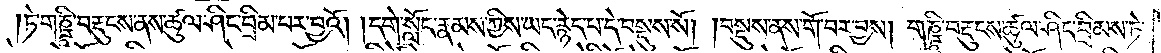ཏེ་གཎྜཱི་བརྡུངས་ནས་ཚུལ་ཤིང་བྲིམ་པར་བྱའོ། །དགེ་སློང་རྣམས་ཀྱིས་ཡང་རྙེད་པ་དེ་བསྡུས་སོ། །བསྡུས་ནས་གོ་བར་བྱས། གཎྜཱི་བརྡུངས་ཚུལ་ཤིང་བྲིམས་ཏེ་
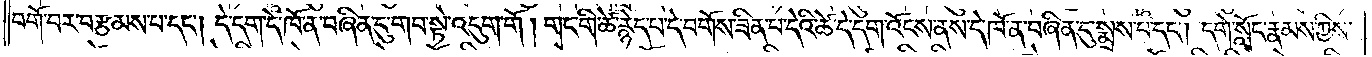བགོ་བར་བརྩམས་པ་དང༌། དེ་དག་དེ་ཁོ་ན་བཞིན་དུ་གབ་སྟེ་འདུག་གོ །གང་གི་ཚེ་རྙེད་པ་དེ་བགོས་ཟིན་པ་དེའི་ཚེ་དེ་དག་འོངས་ནས་དེ་ཁོ་ན་བཞིན་དུ་སྨྲས་པ་དང༌། དགེ་སློང་རྣམས་ཀྱིས་
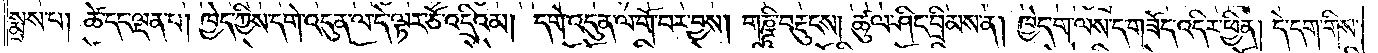སྨྲས་པ། ཚེ་དང་ལྡན་པ། ཁྱེད་ཀྱིས་དགེ་འདུན་ལ་དེ་ལྟར་ཅོ་འདྲིའམ། དགེ་འདུན་ལ་གོ་བར་བྱས། གཎྜཱི་བརྡུངས། ཚུལ་ཤིང་བྲིམས་ན། ཁྱེད་ག་ལས་ད་གཟོད་འདིར་ཕྱིན། དེ་དག་གིས་
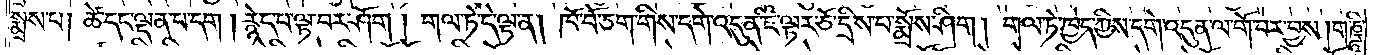སྨྲས་པ། ཚེ་དང་ལྡན་པ་དག །རྙེད་པ་ལྟ་བར་ཤོག །གལ་ཏེ་དེ་ལྟ་ན། ཁོ་བོ་ཅག་གིས་དགེ་འདུན་ཇི་ལྟར་ཅོ་དྲིས་པ་སྨྲོས་ཤིག །གལ་ཏེ་ཁྱེད་ཀྱིས་དགེ་འདུན་ལ་གོ་བར་བྱས། གཎྜཱི་
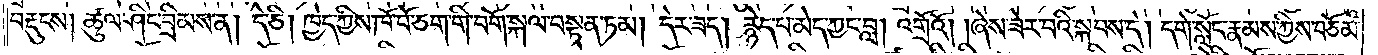བརྡུངས། ཚུལ་ཤིང་བྲིམས་ན། དེ་ཅི། ཁྱེད་ཀྱིས་ཁོ་བོ་ཅག་གི་བགོ་སྐལ་བསྟན་ཏམ། དེར་ཟད། རྙེད་པ་མེད་ཀྱང་བླ། འགྲོའོ། །ཞེས་ཟེར་བའི་སྐབས་དེ། དགེ་སློང་རྣམས་ཀྱིས་བཅོམ་
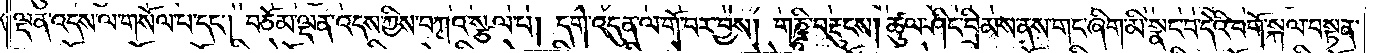ལྡན་འདས་ལ་གསོལ་པ་དང༌། བཅོམ་ལྡན་འདས་ཀྱིས་བཀའ་སྩལ་པ། དགེ་འདུན་ལ་གོ་བར་བྱས། གཎྜཱི་བརྡུངས། ཚུལ་ཤིང་བྲིམས་ནས་གང་ཞིག་མི་སྣང་བ་དེའི་བགོ་སྐལ་བསྟན་
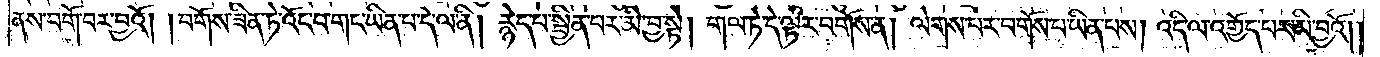ནས་བགོ་བར་བྱའོ། །བགོས་ཟིན་ཏེ་འོང་བ་གང་ཡིན་པ་དེ་ལ་ནི། རྙེད་པ་སྦྱིན་པར་མི་བྱ་སྟེ། གལ་ཏེ་དེ་ལྟར་བགོས་ན། ལེགས་པར་བགོས་པ་ཡིན་པས། འདི་ལ་འགྱོད་པར་མི་བྱའོ། །
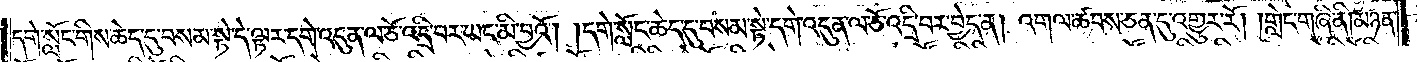དགེ་སློང་གིས་ཆེད་དུ་བསམ་སྟེ་དེ་ལྟར་དགེ་འདུན་ལ་ཅོ་འདྲི་བར་ཡང་མི་བྱའོ། །དགེ་སློང་ཆེད་དུ་བསམ་སྟེ་དགེ་འདུན་ལ་ཅོ་འདྲི་བར་བྱེད་ན། འགལ་ཚབས་ཅན་དུ་འགྱུར་རོ། །གླེང་གཞི་ནི། མཉན་
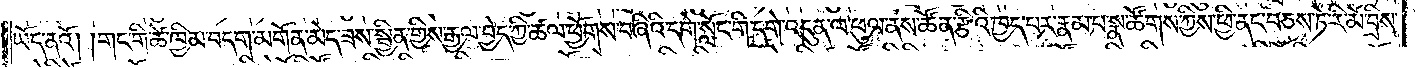ཡོད་ནའོ། །གང་གི་ཚེ་ཁྱིམ་བདག་མགོན་མེད་ཟས་སྦྱིན་གྱིས་རྒྱལ་བྱེད་ཀྱི་ཚལ་ཕྱོགས་བཞིའི་དགེ་སློང་གི་དགེ་འདུན་ལ་ཕུལ་ནས་ཚོན་རྩིའི་ཁྱད་པར་རྣམ་པ་སྣ་ཚོགས་ཀྱིས་ཕྱི་ནང་བཅས་ཏེ་རི་མོ་བྲིས་
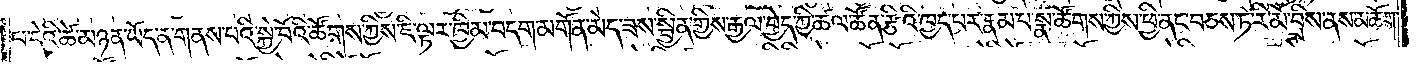པ་དེའི་ཚེ་མཉན་ཡོད་ན་གནས་པའི་སྐྱེ་བོའི་ཚོགས་ཀྱིས་ཇི་ལྟར་ཁྱིམ་བདག་མགོན་མེད་ཟས་སྦྱིན་གྱིས་རྒྱལ་བྱེད་ཀྱི་ཚལ་ཚོན་རྩིའི་ཁྱད་པར་རྣམ་པ་སྣ་ཚོགས་ཀྱིས་ཕྱི་ནང་བཅས་ཏེ་རི་མོ་བྲིས་ནས་མཆོག་
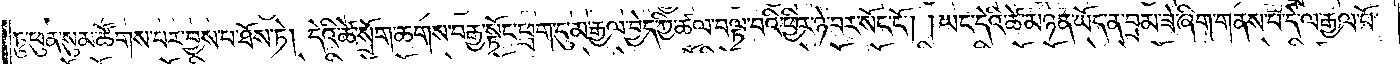ཏུ་ཕུན་སུམ་ཚོགས་པར་བྱས་པ་ཐོས་ཏེ། དེའི་ཚེ་སྲོག་ཆགས་བརྒྱ་སྟོང་ཕྲག་དུ་མ་རྒྱལ་བྱེད་ཀྱི་ཚལ་བལྟ་བའི་ཕྱིར་ཉེ་བར་སོང་ངོ༌། །ཡང་དེའི་ཚེ་མཉན་ཡོད་ན་བྲམ་ཟེ་ཞིག་གནས་པ་དེ་ལ་རྒྱལ་པོ་
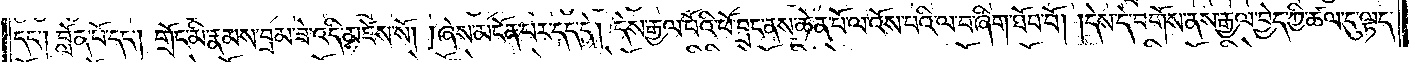དང༌། བློན་པོ་དང༌། གྲོང་མི་རྣམས་བྲམ་ཟེ་འདི་མཛེས་སོ། །ཞེས་མངོན་པར་དད་དེ། དེས་རྒྱལ་པོའི་ཕོ་བྲང་ནས་ཆེན་པོ་ལ་འོས་པའི་ལ་བ་ཞིག་ཐོབ་བོ། །དེས་དེ་བགོས་ནས་རྒྱལ་བྱེད་ཀྱི་ཚལ་དུ་ལྟད་
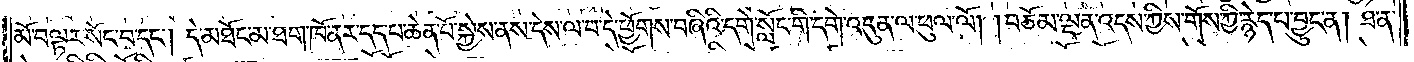མོ་བལྟར་སོང་བ་དང༌། དེ་མཐོང་མ་ཐག་ཁོ་ནར་དད་པ་ཆེན་པོ་སྐྱེས་ནས་དེས་ལ་བ་དེ་ཕྱོགས་བཞིའི་དགེ་སློང་གི་དགེ་འདུན་ལ་ཕུལ་ལོ། །བཅོམ་ལྡན་འདས་ཀྱིས་གོས་ཀྱི་རྙེད་པ་བྱུང་ན། ཐ་ན་
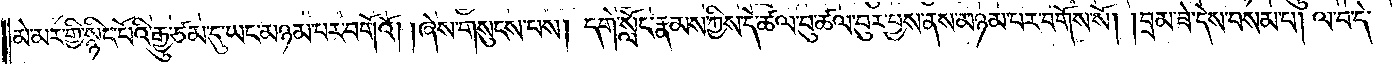མེ་མར་གྱི་སྙིང་པོའི་རྒྱུ་ཙམ་དུ་ཡང་མཉམ་པར་བགོའོ། །ཞེས་གསུངས་པས། དགེ་སློང་རྣམས་ཀྱིས་དེ་ཚལ་བུ་ཚལ་བུར་བྱས་ནས་མཉམ་པར་བགོས་སོ། །བྲམ་ཟེ་དེས་བསམ་པ། ལ་བ་དེ་
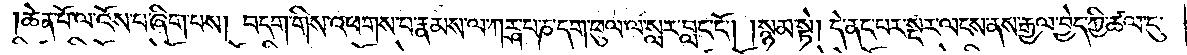ཆེན་པོ་ལ་འོས་པ་ཞིག་པས། བདག་གིས་འཕགས་པ་རྣམས་ལ་ཀརྴ་པ་ཎ་དག་ཕུལ་ལ་སླར་བླང་ངོ༌། །སྙམ་སྟེ། དེ་ནང་པར་སྔར་ལངས་ནས་རྒྱལ་བྱེད་ཀྱི་ཚལ་དུ་
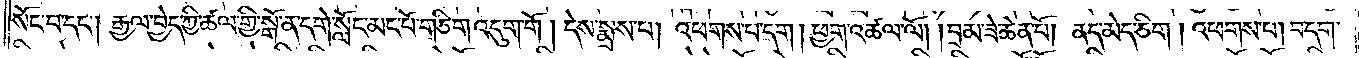སོང་བ་དང༌། རྒྱལ་བྱེད་ཀྱི་ཚལ་གྱི་སྒོ་ན་དགེ་སློང་མང་པོ་གཅིག་འདུག་གོ །དེས་སྨྲས་པ། འཕགས་པ་དག། ཕྱག་འཚལ་ལོ། །བྲམ་ཟེ་ཆེན་པོ། ནད་མེད་ཅིག། འཕགས་པ། བདག་
